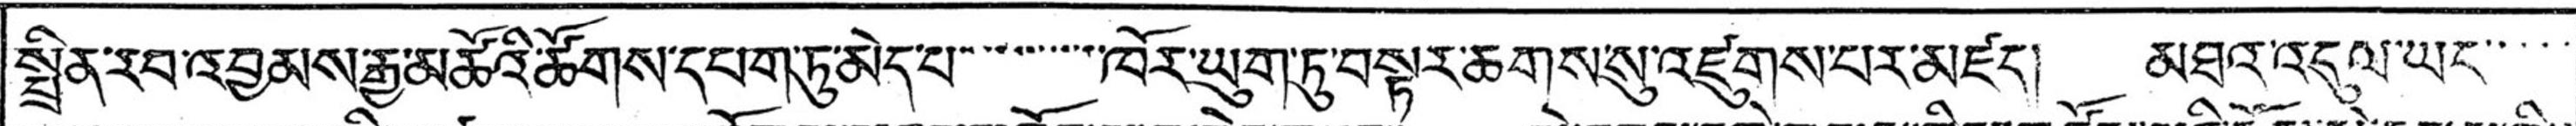སྤྲིན་རབ་འབྱམས་རྒྱ་མཚོའི་ཚོགས་དཔག་ཏུ་མེད་པ་་་་་་་ཁོར་ཨུག་ཏུ་བསྟར་ཆག་ས་སུ་འཛུགས་པར་མཛད། མཐའ་འདུལ་ཡང་་་་་
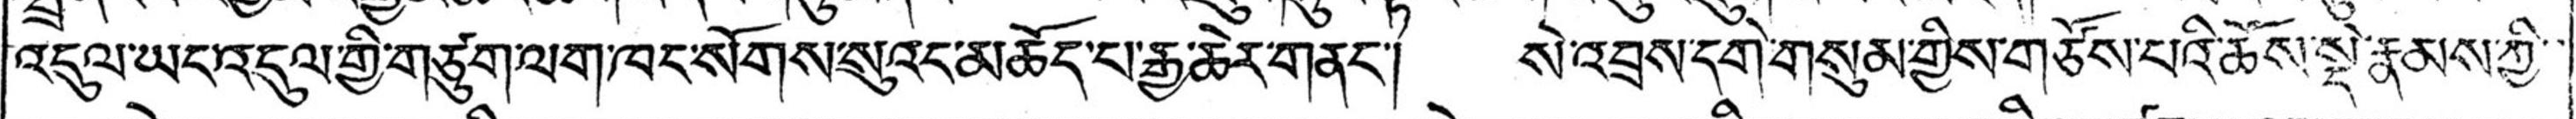འདུལ་ཡང་འདུལ་གྱི་གཙུག་ལག་ཁང་སོགས་སུའང་མཆོད་པ་རྒྱ་ཆེར་གནང་། སེ་འབྲས་དགེ་གསུམ་གྱིས་གཙོས་པའི་ཆོས་སྡེ་རྣམས་ཀྱི་་
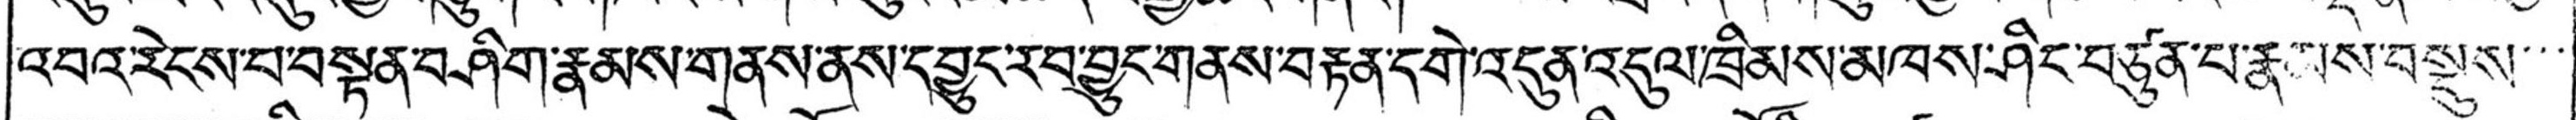འབའ་རེངས་པ་བསྟན་བཤིག་རྣམས་གནས་ནས་དབྱུང་རབ་བྱུང་གནས་བརྟན་དགེ་འདུན་འདུལ་ཁྲིམས་མཁས་ཤིང་བཙུན་པ་རྣམས་བསྡུས་་་
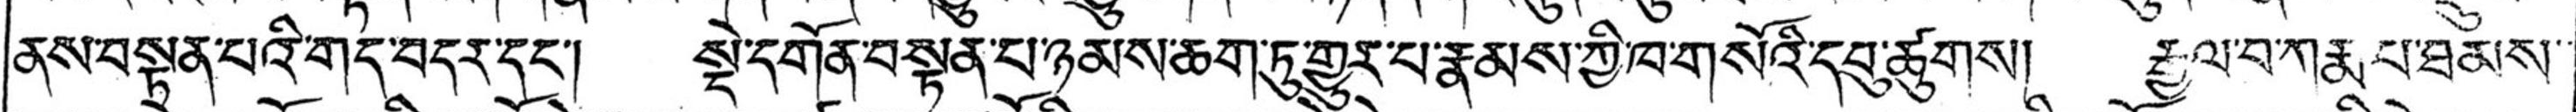ནས་བསྟན་པའི་གད་བདར་དང་། སྡེ་དགོན་བསྟན་པ་ཉམས་ཆག་ཏུ་གྱུར་པ་རྣམས་ཀྱི་ཁ་གསོའི་དབུ་ཚུགས། རྒྱལ་བ་ཀརྨཔ་ཐམས་་
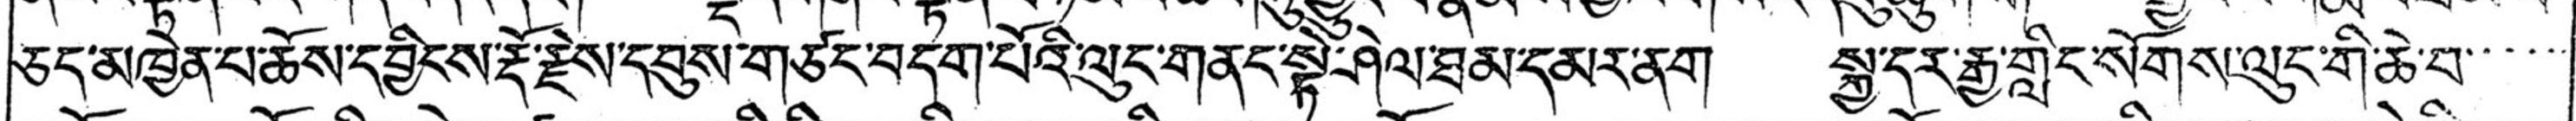ཅད་མཁྱེན་པ་ཆོས་དབྱིངས་རྡོ་རྗེས་དབུས་གཙང་བདག་པོའི་ལུང་གནང་སྟེ་ཤེལ་ཐམ་དམར་ནག སྐྱ་དར་རྒྱ་གླིང་སོགས་ལུང་གི་ཆེ་པ་་་་་་
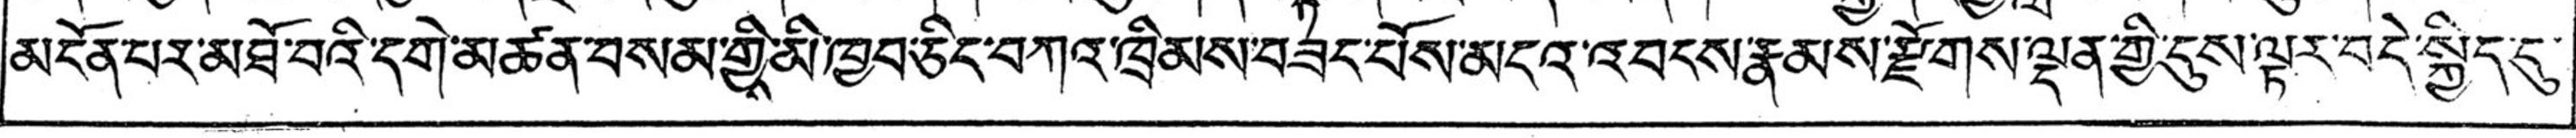མངོན་པར་མཐོ་བའི་དགེ་མཚན་བསམ་གྱིས་མི་ཁྱབ་ཅིང་བཀའ་ཁྲིམས་བཟད་པོས་མདར་འབངས་རྣམས་རྫོགས་ལྡན་གྱི་དུས་ལྟར་བདེ་སྐྱིད་དུ་
